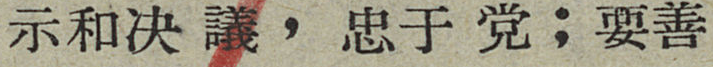示和决議，忠于党；要善
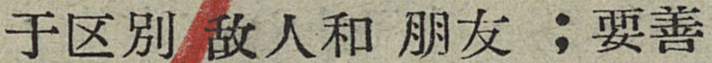于区别敌人和朋友；要善
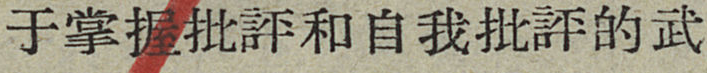于掌握批評和自我批評的武
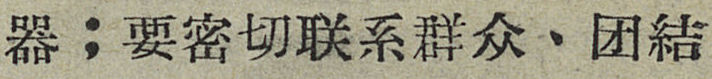器；要密切联系群众、团結
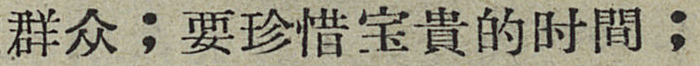群众；要珍惜宝貴的时間；
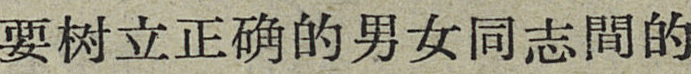要树立正确的男女同志間的
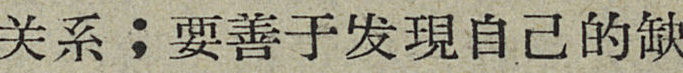关系；要善于发現自己的缺
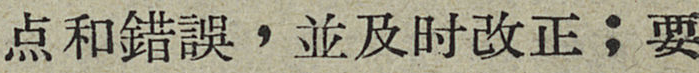点和錯誤，並即使改正；要
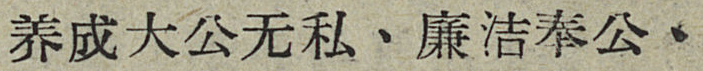养成大公无私、廉洁奉公、
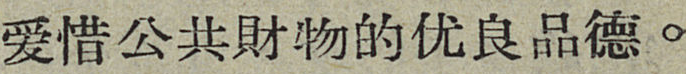爱惜公共財物的优良品德。
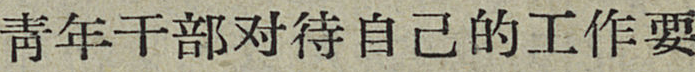靑年干部对待自己的工作要
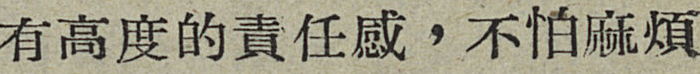有高度的責任感，不怕麻煩
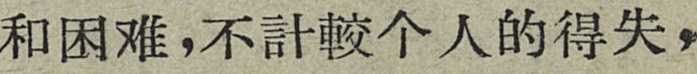和困难，不計較个人的得失，
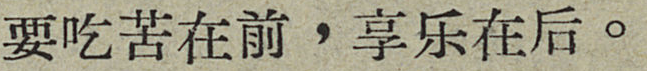要吃苦在前，享乐在后。
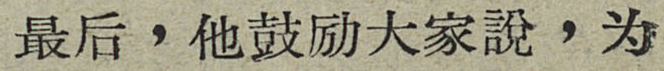最后，他鼓励大家說，为
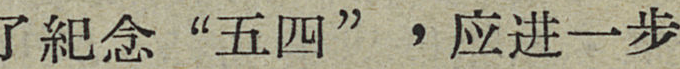了紀念“五四”，应进一步
